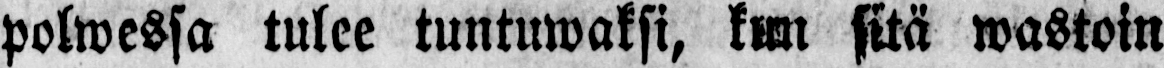polwessa tulee tuntuwaksi, kun sitä wastoin
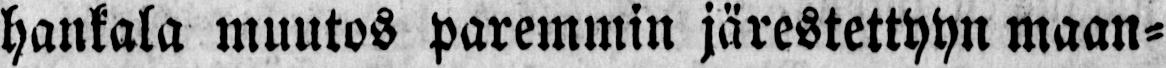hankala muutos paremmin järestettyyn maan-
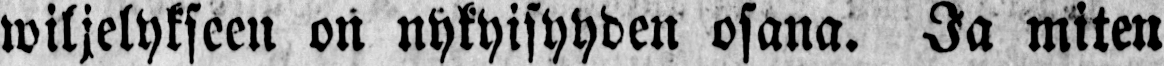wiljelykseen on nykyisyyden osana. Ja miten
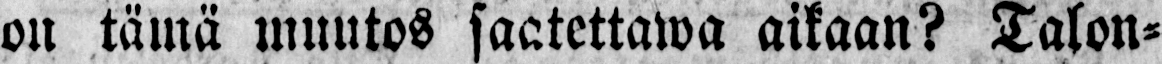on tämä muutos saatettawa aikaan? Talon-
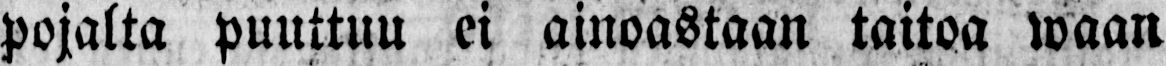pojalta puuttuu ei ainoastaan taitoa waan
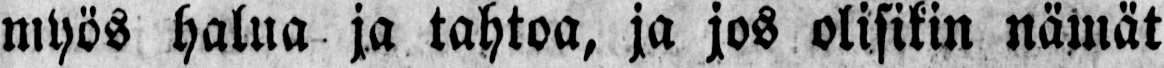myös halua ja tahtoa, ja jos olisikin nämät
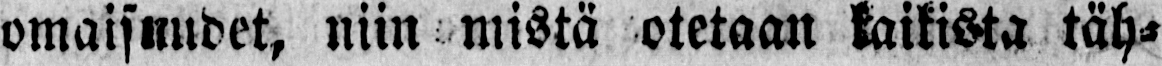omaisuudet, niin mistä otetaan kaikista täh-
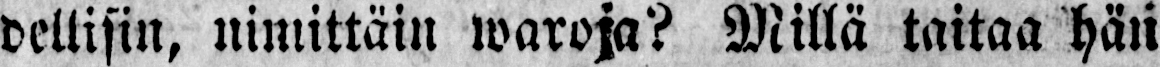dellisin, nimittäin waroja? Millä taitaa hän
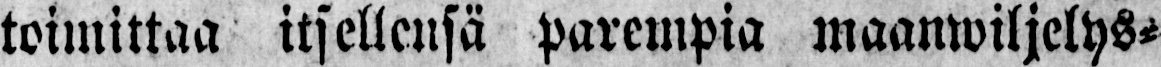toimittaa itsellensä parempia maanwiljelys-
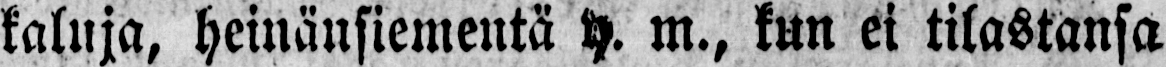kaluja, heinänsiementä y. m., kun ei tilastansa
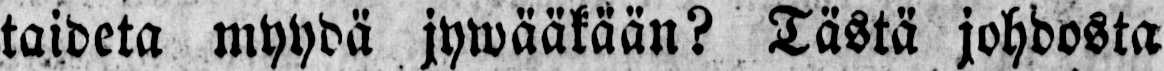taideta myydä jywääkään? Tästä johdosta
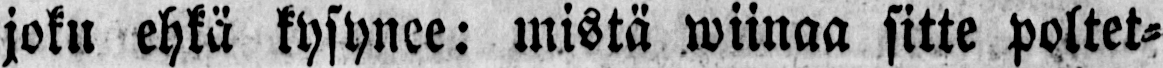joku ehkä kysynee: mistä wiinaa sitte poltet-
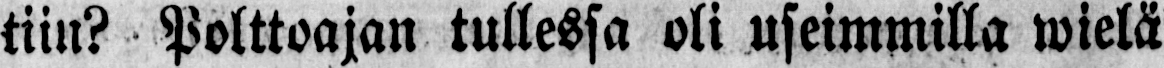tiin? Polttoajan tullessa oli useimmilla wielä
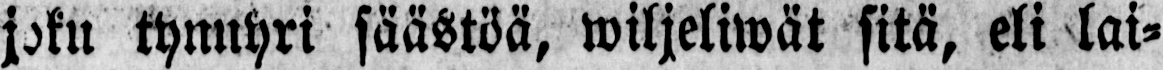joku tynnyri säästöä, wiljeliwät sitä, eli lai-
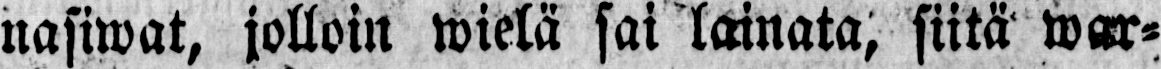nasiwat, jolloin wielä sai lainata, siitä war-
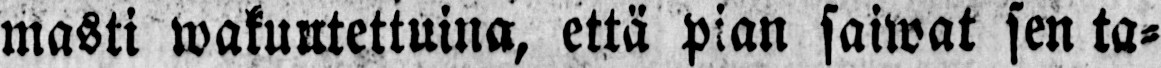masti wakuutettuina, että pian saiwat sen ta-
